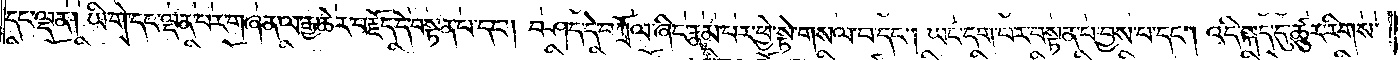དང་ལྡན། ཡི་གེ་དང་ལྡན་པར་གཞན་ལ་རྒྱ་ཆེར་བརྗོད་དེ་བསྟན་པ་དང༌། བཤད་དེ་བཀྲོལ་ཞིང་རྣམ་པར་ཕྱེ་སྟེ་གསལ་བ་དང༌། ཡང་དག་པར་བསྟན་པ་བྱས་པ་དང༌། འདི་སྐད་དུ་ཚུར་རིགས་
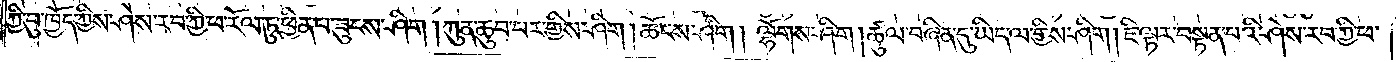ཀྱི་བུ་ཁྱོད་ཀྱིས་ཤེས་རབ་ཀྱི་ཕ་རོལ་ཏུ་ཕྱིན་པ་ཟུངས་ཤིག །ཀུན་ཆུབ་པར་གྱིས་ཤིག །ཆོངས་ཤིག །ལྷོགས་ཤིག །ཚུལ་བཞིན་དུ་ཡིད་ལ་གྱིས་ཤིག །ཇི་ལྟར་བསྟན་པའི་ཤེས་རབ་ཀྱི་ཕ་
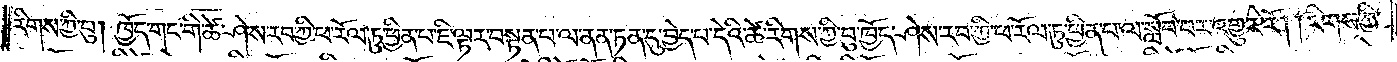རིགས་ཀྱི་བུ། ཁྱོད་གང་གི་ཚེ་ཤེས་རབ་ཀྱི་ཕ་རོལ་ཏུ་ཕྱིན་པ་ཇི་ལྟར་བསྟན་པ་ལ་ནན་ཏན་དུ་བྱེད་པ་དེའི་ཚེ་རིགས་ཀྱི་བུ་ཁྱོད་ཤེས་རབ་ཀྱི་ཕ་རོལ་ཏུ་ཕྱིན་པ་ལ་སློབ་པར་འགྱུར་རོ། །རིགས་ཀྱི་
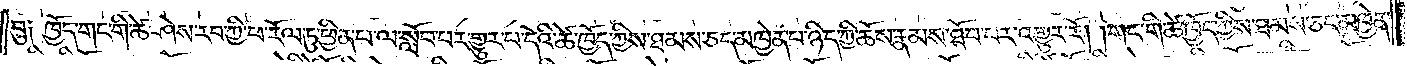བུ༑ ཁྱོད་གང་གི་ཚེ་ཤེས་རབ་ཀྱི་ཕ་རོལ་ཏུ་ཕྱིན་པ་ལ་སློབ་པར་གྱུར་བ་དེའི་ཚེ་ཁྱོད་ཀྱིས་ཐམས་ཅད་མཁྱེན་པ་ཉིད་ཀྱི་ཆོས་རྣམས་ཐོབ་པར་འགྱུར་རོ། །གང་གི་ཚེ་ཁྱོད་ཀྱིས་ཐམས་ཅད་མཁྱེན་
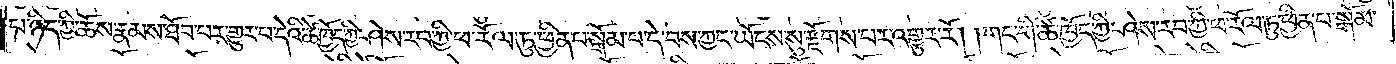པ་ཉིད་ཀྱི་ཆོས་རྣམས་ཐོབ་པར་གྱུར་བ་དེའི་ཚེ་ཁྱོད་ཀྱི་ཤེས་རབ་ཀྱི་ཕ་རོལ་ཏུ་ཕྱིན་པ་སྒོམ་པ་དེ་བས་ཀྱང་ཡོངས་སུ་རྟོགས་པར་འགྱུར་རོ། །གང་གི་ཚེ་ཁྱོད་ཀྱི་ཤེས་རབ་ཀྱི་ཕ་རོལ་ཏུ་ཕྱིན་པ་སྒོམ་
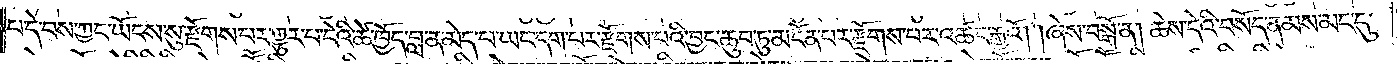པ་དེ་བས་ཀྱང་ཡོངས་སུ་རྫོགས་པར་གྱུར་པ་དེའི་ཚེ་ཁྱོད་བླ་ན་མེད་པ་ཡང་དག་པར་རྫོགས་པའི་བྱང་ཆུབ་ཏུ་མངོན་པར་རྫོགས་པར་འཚང་རྒྱའོ། །ཞེས་བསྒོ་ན། ཆེས་དེའི་བསོད་ནམས་མང་དུ་
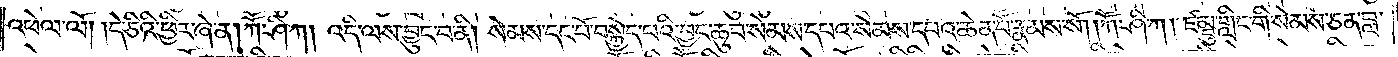འཕེལ་ལོ། །དེ་ཅིའི་ཕྱིར་ཞེ་ན། ཀཽ་ཤི་ཀ། འདི་ལས་བྱུང་བ་ནི། སེམས་དང་པོ་བསྐྱེད་བའི་བྱང་ཆུབ་སེམས་དཔའ་སེམས་དཔའ་ཆེན་པོ་རྣམས་སོ། །ཀཽ་ཤི་ཀ། ཛམྦུ་གླིང་གི་སེམས་ཅན་བླ་
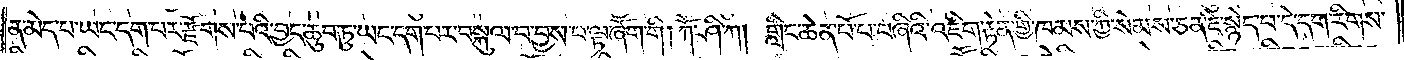ན་མེད་པ་ཡང་དག་པར་རྫོགས་པའི་བྱང་ཆུབ་ཏུ་ཡང་དག་པར་བསྐུལ་བ་བྱས་པ་ལྟ་ཞོག་གི །ཀཽ་ཤི་ཀ། གླིང་ཆེན་པོ་བཞིའི་འཇིག་རྟེན་གྱི་ཁམས་ཀྱི་སེམས་ཅན་ཇི་སྙེད་པ་དེ་དག་རིགས་
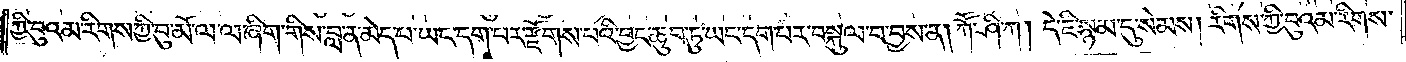ཀྱི་བུའམ་རིགས་ཀྱི་བུ་མོ་ལ་ལ་ཞིག་གིས་བླ་ན་མེད་པ་ཡང་དག་པར་རྫོགས་པའི་བྱང་ཆུབ་ཏུ་ཡང་དག་པར་བསྐུལ་བ་བྱས་ན། ཀཽ་ཤི་ཀ། དེ་ཇི་སྙམ་དུ་སེམས། རིགས་ཀྱི་བུའམ་རིགས་
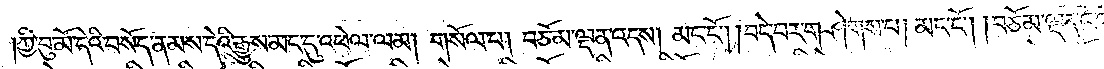ཀྱི་བུ་མོ་དེའི་བསོད་ནམས་དེའི་རྒྱུས་མང་དུ་འཕེལ་ལམ། གསོལ་པ། བཅོམ་ལྡན་འདས། མང་ངོ༌། །བདེ་བར་གཤེགས་པ། མང་ངོ༌། །བཅོམ་ལྡན་འདས་
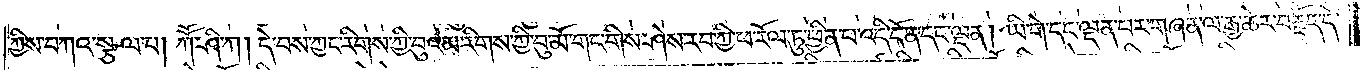ཀྱིས་བཀའ་སྩལ་པ། ཀཽ་ཤི་ཀ། དེ་བས་ཀྱང་རིགས་ཀྱི་བུའམ་རིགས་ཀྱི་བུ་མོ་གང་གིས་ཤེས་རབ་ཀྱི་ཕ་རོལ་ཏུ་ཕྱིན་པ་འདི་དོན་དང་ལྡན། ཡི་གེ་དང་ལྡན་པར་གཞན་ལ་རྒྱ་ཆེར་བརྗོད་དེ་
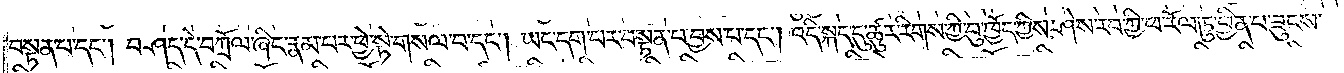བསྟན་པ་དང༌། བཤད་དེ་བཀྲོལ་ཞིང་རྣམ་པར་ཕྱེ་སྟེ་གསལ་བ་དང༌། ཡང་དག་པར་བསྟན་བ་བྱས་པ་དང༌། འདི་སྐད་དུ་ཚུར་རིགས་ཀྱི་བུ་ཁྱོད་ཀྱིས་ཤེས་རབ་ཀྱི་ཕ་རོལ་ཏུ་ཕྱིན་པ་ཟུངས་
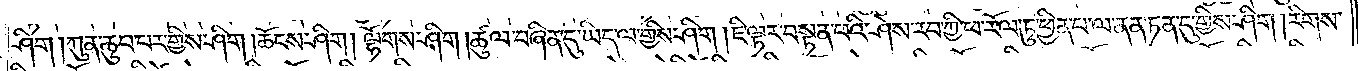ཤིག །ཀུན་ཆུབ་པར་གྱིས་ཤིག །ཆོངས་ཤིག །ལྷོགས་ཤིག །ཚུལ་བཞིན་དུ་ཡིད་ལ་གྱིས་ཤིག །ཇི་ལྟར་བསྟན་པའི་ཤེས་རབ་ཀྱི་ཕ་རོལ་ཏུ་ཕྱིན་པ་ལ་ནན་ཏན་དུ་གྱིས་ཤིག །རིགས་
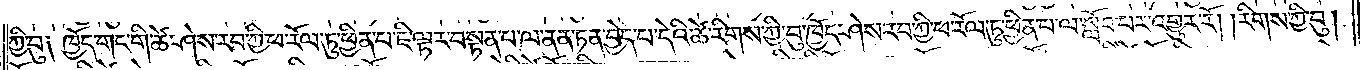ཀྱི་བུ༑ ཁྱོད་གང་གི་ཚེ་ཤེས་རབ་ཀྱི་ཕ་རོལ་ཏུ་ཕྱིན་པ་ཇི་ལྟར་བསྟན་པ་ལ་ནན་ཏན་བྱེད་པ་དེའི་ཚེ་རིགས་ཀྱི་བུ་ཁྱོད་ཤེས་རབ་ཀྱི་ཕ་རོལ་ཏུ་ཕྱིན་པ་ལ་སློབ་པར་འགྱུར་རོ། །རིགས་ཀྱི་བུ།
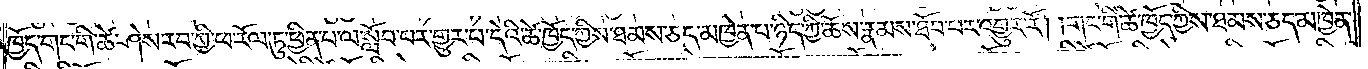ཁྱོད་གང་གི་ཚེ་ཤེས་རབ་ཀྱི་ཕ་རོལ་ཏུ་ཕྱིན་པ་ལ་སློབ་པར་གྱུར་པ་དེའི་ཚེ་ཁྱོད་ཀྱིས་ཐམས་ཅད་མཁྱེན་པ་ཉིད་ཀྱི་ཆོས་རྣམས་ཐོབ་པར་འགྱུར་རོ། །གང་གི་ཚེ་ཁྱོད་ཀྱིས་ཐམས་ཅད་མཁྱེན་
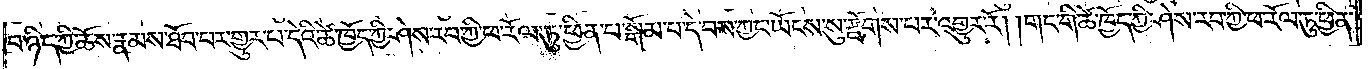པ་ཉིད་ཀྱི་ཆོས་རྣམས་ཐོབ་པར་གྱུར་པ་དེའི་ཚེ་ཁྱོད་ཀྱི་ཤེས་རབ་ཀྱི་ཕ་རོལ་ཏུ་ཕྱིན་པ་སྒོམ་པ་དེ་བས་ཀྱང་ཡོངས་སུ་རྫོགས་པར་འགྱུར་རོ། །གང་གི་ཚེ་ཁྱོད་ཀྱི་ཤེས་རབ་ཀྱི་ཕ་རོལ་ཏུ་ཕྱིན་
